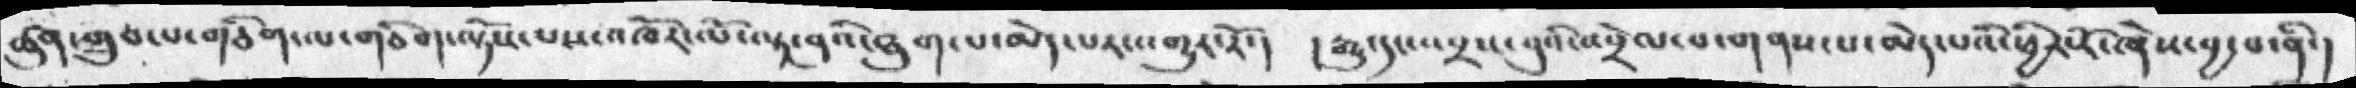ཚུན་གྲུབ་པ་གཅིག་ལ་གཅིག་ལྟོས་པས་འཁོར་ལོ་ལྟ་བུའི་ཐུག་པ་མེད་པར་གྱུར་རོ་།  །རྒྱུ་དང་འབྲས་བུའི་འབྲེལ་བ་གནས་པ་མེད་པའི་ཕྱིར་རོ་ཞེས་བྱ་བ་ནི་།
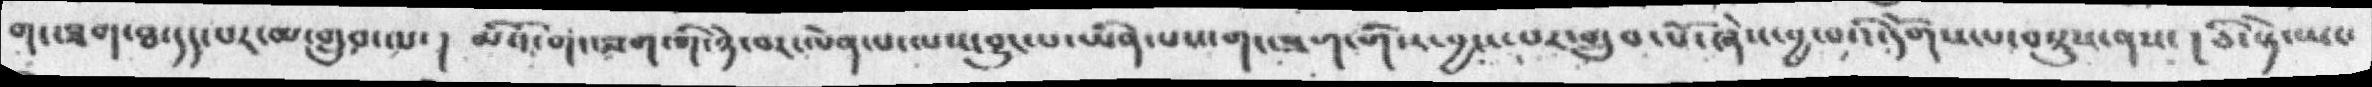གང་ཟག་ཐ དད་པར་མ་གྲུབ་ལ་། མིའི་གང་ཟག་གི་ཉེ་བར་ལེན་པ་ལས་བྱུང་པ་ཡིན་པས་གང་ཟག་གིས་བྱས་པར་གྲུབ་པོ་ཞེས་བྱ་བའི་དོགས་པ་བསྡུས་ནས་། ཅི་སྟེ་ཡང་
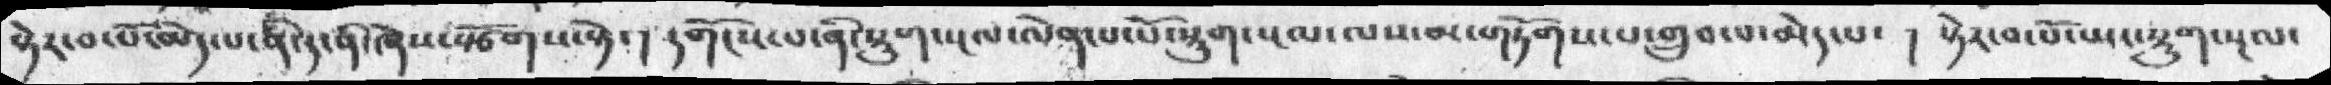སྟེར་བ་པོ་མེད་པ་ནི་ད་ནི་ཞེས་སྩོགས་སྟེ་། དགོངས་པ་ནི་སྡུག་སྔལ་ལེན་པ་པོ་སྡུག་སྔལ་ལས་མ་གཏོགས་པ་གྲུབ་པ་མེད་པ་། སྟེར་བ་པོ་ཡང་སྡུག་སྔལ་
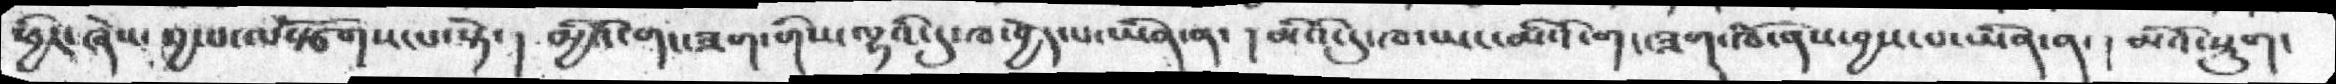ཕྱིར་ཞེས་བྱ་བ་ལསྩོགས་པ་སྟེ་། མྱིའི་གང་ཟག་གིས་ལྷའི་དུ་ཁ་བྱེད་པ་ཡིན་ན་། མིའི་དུ་ཁ་ཡང་མིའི་གང་ཟག་ཁོ་ནས་བྱས་པ་ཡིན་ན་། མིའི་སྡུག་
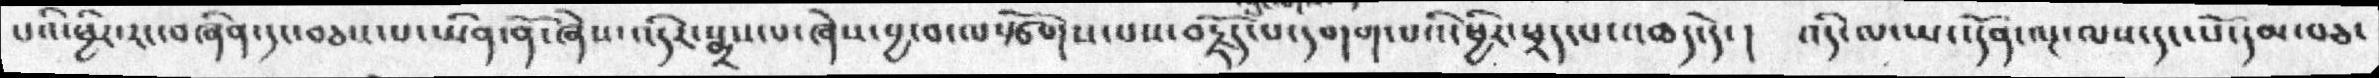པའི་ཕྱིར་རང་བཞིན་དང་བཅས་པ་ཡིན་ནོ་ཞེས་འདིར་སྨྲས་པ་ཞེས་བྱ་བ་ལསྩོགས་པས་བརྗོད་པ་དགག་པའི་ཕྱིར་ཕྲད་པ་འཆད་དེ་། འདི་ལ་ཡང་དོན་ལྔ་ལས་དང་པོ་དམ་བཅ་
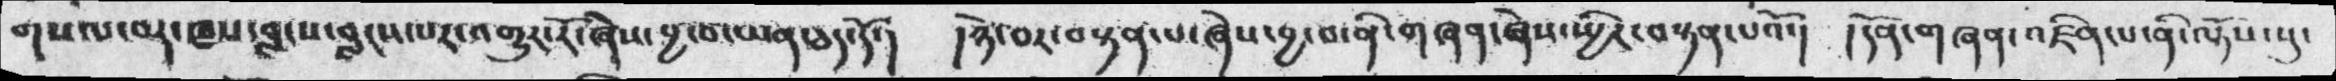གསལ་བར་ཁས་བླངས་བླངས་པར་འགྱུར་རོ་ཞེས་བྱ་བ་ཡན་ཅད་དོ་། །ཉེ་བར་བསྟན་པ་ཞེས་བྱ་བ་ནི་གཞན་ཞེས་སྤྱིར་བསྟན་པའོ་། །དོན་གཞན་འཛིན་པ་ནི་ལྟོས་སུ་
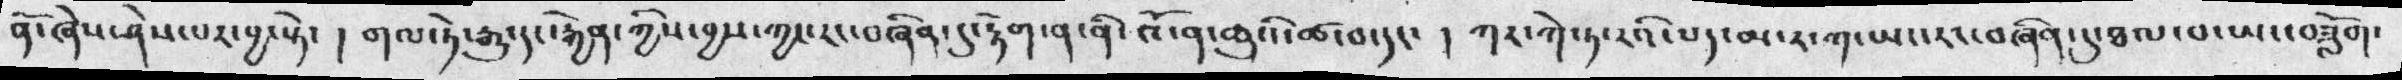ནོ་ཞེས་ཤེས་པར་བྱ་སྟེ་། གལ་ཏེ་རྒྱུ་དང་རྐྱེན་ཀྱིས་བྱས་ཀྱང་རང་བཞིན་དུ་རྟག་ན་ནི་འོ་ན་ཆུའི་ཚ་བ་དང་། ཀར་ཀེ་ཏ་རའི་པད་མ་ར་ཀ་ཡང་རང་བཞིན་དུ་ཐལ་བ་ཡང་བཟློག་
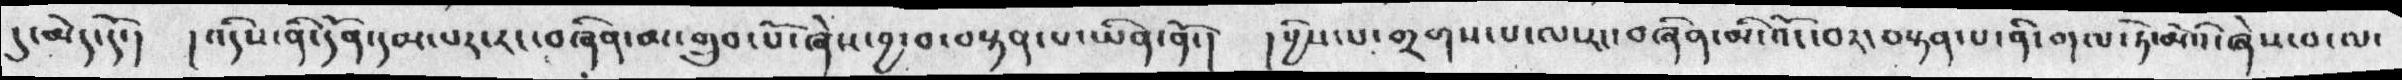དུ་མེད་དོ་།  །འདིས་ནི་དོན་དམ་པར་རང་བཞིན་མ་གྲུབ་པོ་ཞེས་བྱ་བ་བསྟན་པ་ཡིན་ནོ་། །བྱིས་པ་གྲགས་པ་ལ་རང་བཞིན་མི་འོང་བར་བསྟན་པ་ནི་གལ་ཏེ་མེའི་ཞེས་བ་ལ་
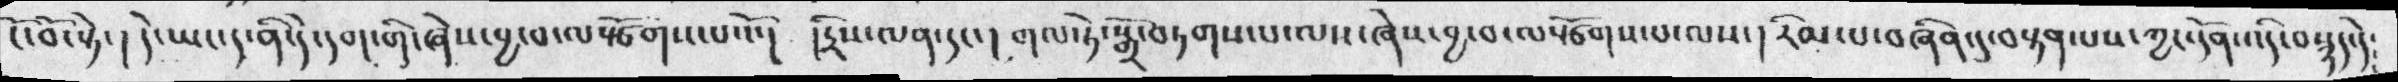ངོ་བོ་སྟེ་།  དེ་ཡང་ད་ནི་དེ་དག་གི་ཞེས་བྱ་བ་ལསྩོགས་པའོ་།  །དྲིས་ལན་དང་།  གལ་ཏེ་སྒྲོ་བཏགས་པ་ལས་ཞེས་བྱ་བ་ལསྩོགས་པ་ལས་།  རིམ་པ་བཞིན་དུ་བསྟན་པས་ཀྱང་དོན་འདི་བསྙད་དེ
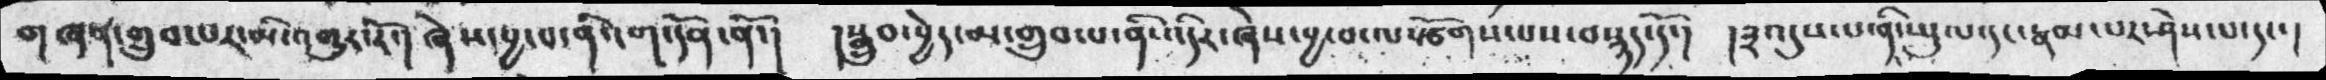གཞན་གྲུབ་པར་མི་འགྱུར་རོ་།  ཞེས་བྱ་བ་ནི་ངག་དོན་ནོ་།  །སྒྲུབ་བྱེད་མ་གྲུབ་པ་ནི་འདིར་ཞེས་བྱ་བ་ལསྩོགས་པས་བསྙད་དོ་།  །༣འདུས་པ་ནི་ཡུལ་དང་རྣམ་པར་ཤེས་པ་དང་།
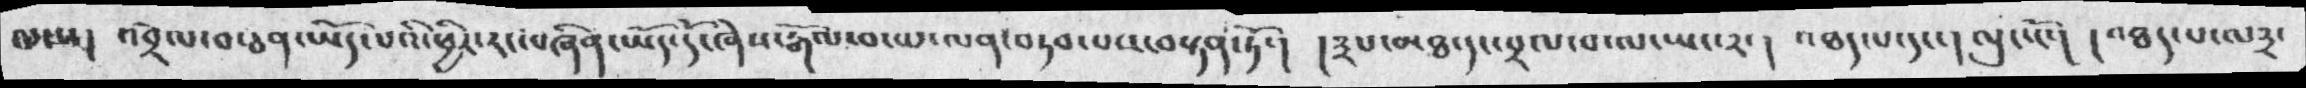ལ་ས།  འབྲེལ་བ་ཅན་ཡོད་པའི་ཕྱིར་རང་བཞིན་ཡོད་དོ་ཞེས་རྒོལ་བང་པ་ལན་བཏབ་པས་བསྟན་ཏོ་།  །༣པ་མཐ་དང་བྲལ་པ་ལ་ཡང་༢་།  འཐད་པ་དང་།  ལུང་ངོ་།   ། འཐད་པ་ལ༣་
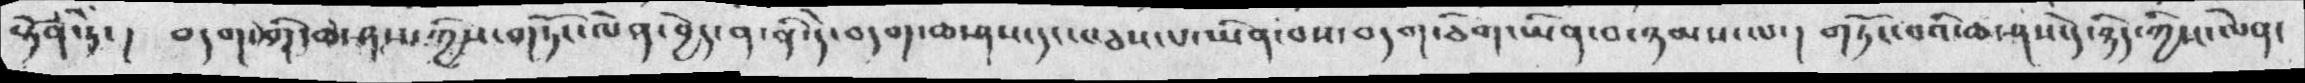སྟོན་ཏེ་།  བདག་གི་ཆ་ཤས་ཀྱིས་གཏོང་ལེན་བྱེད་ན་ནི་དེ་བདག་ཆ་ཤས་དང་བཅས་པ་ཡིན་བས་བདག་ཅིག་ཡིན་བ་ཉམས་ལ་།  གཏོང་བའི་ཆ་ཤས་དེ་ཉིད་ཀྱིས་ལེན་
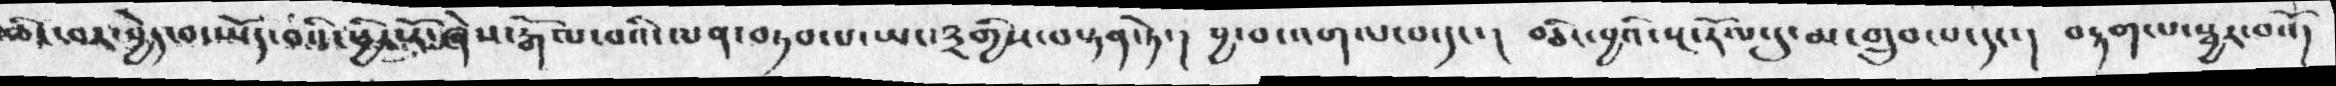ཆིང་བར་བྱེད་བ་ཡོད་བའི་ཕྱིར་རོ་ཞེས་རྒོལ་བའི་ལན་བཏབ་པ་ཡང་༣གྱིས་བསྟན་ཏེ་།   བྱ་བ་འགལ་བ་དང་ །   བཅིང་བྱའི་སྔ་རོལ་དུ་མ་གྲུབ་པ་དང་།   བརྟག་པ་སྦྱར་བའོ།
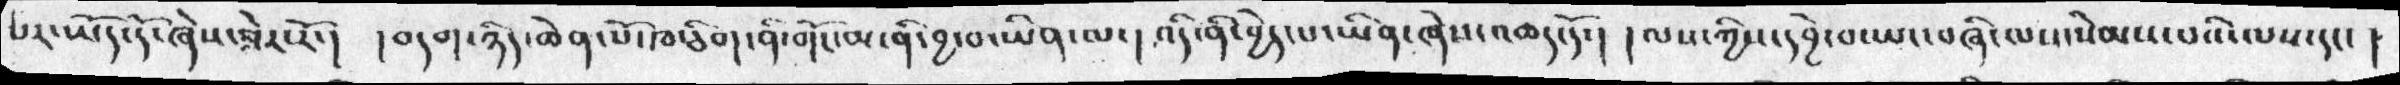པར་ཡོད་དོ་ཞེས་ཟེར་རོ་།    །བདག་ཉིད་ཆེན་པོ་ཁ་ཅིག་ནི་གོང་མ་ནི་བྱ་བ་ཡིན་ལ་ ། འདི་ནི་བྱེད་པ་ཡིན་ཞེས་འཆད་དོ་། ། ལས་ཀྱིས་དབྱེ་བ་ཡང་བཞི་ལས་སེམས་པའི་ལས་དང་   །
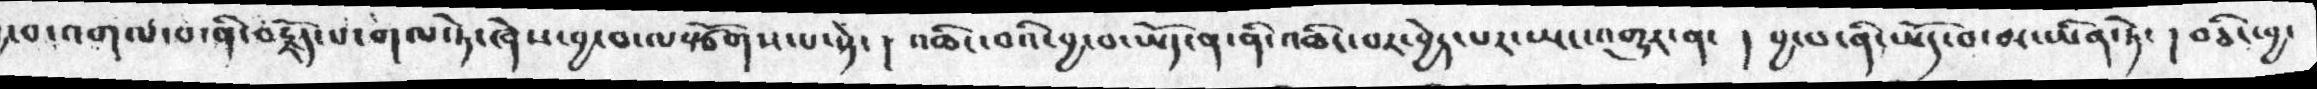བ་འགལ་བ་ནི་བརྗོད་པ་གལ་ཏེ་ཞེས་བྱ་བ་ལསྩོགས་པ་སྟེ་  ། འཆི་བའི་བྱ་བ་ཡོད་ན་ནི་འཆིང་བར་བྱེད་པར་ཡང་འགྱུར་ན་  ། བྱ་བ་ནི་ཡོད་བ་མ་ཡིན་ཏེ་ ། བཅིང་བྱ་
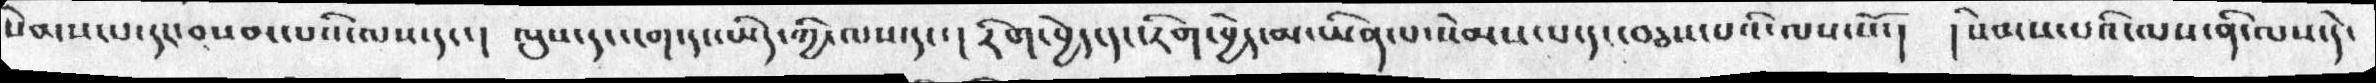སེམས་པ་དང་བསམ་པའི་ལས་དང་།  ལུས་དང་ངག་དང་ཡིད་ཀྱི་ལས་དང་། རིག་བྱེད་དང་རིག་བྱེད་མ་ཡིན་པ་སེམས་པ་དང་བཅས་པའི་ལས་སོ་།    ། སེམས་པའི་ལས་ནི་ལས་དེ་
